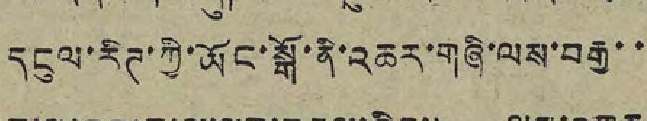དངུལ་རིཊ་ཀྱི་ཡོང་སྒོ་ནི་འཆར་གཞི་ལས་བརྒྱ་་
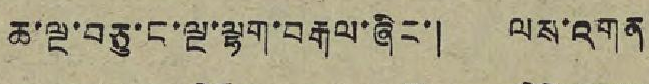ཆ་ལྔ་བཅུ་ང་ལྔ་ལྷག་བརྒལ་ཞིང་། ལས་འགན
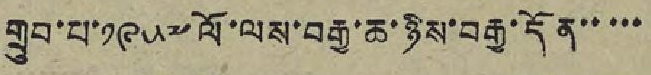གྲུབ་པ་ ༡༩༥༧ ལོ་ལས་བརྒྱ་ཆ་ཉིས་བརྒྱ་དོན་་་་་
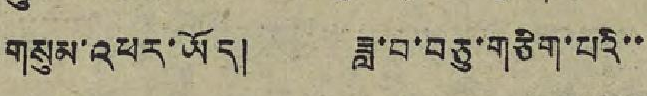གསུམ་འཕར་ཡོད། ཟླ་བ་བཅུ་གཅིག་པའི་་
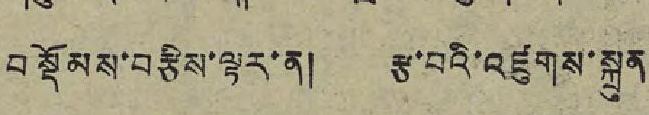བསྡོམས་བརྩིས་ལྟར་ན། རྩ་བའི་འཛུགས་སྐྲུན
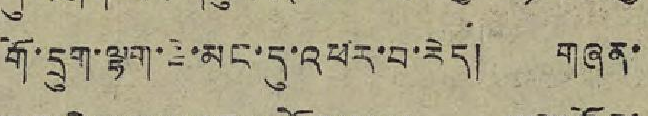གོ་དྲུག་ལྷག་ཇེ་མང་དུ་འཕར་བ་རེད། གཞན་
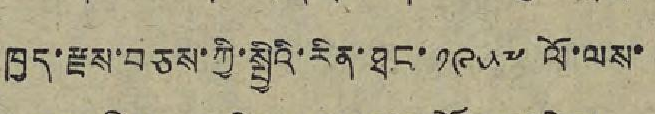ཁྱད་རྫས་བཅས་ཀྱི་སྤྱིའི་རིན་ཐང་ ༡༩༥༧ ལོ་ལས་
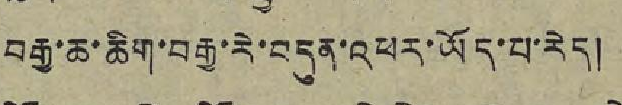བརྒྱ་ཆ་ཆིག་བརྒྱ་རེ་བདུན་འཕར་ཡོད་པ་རེད།
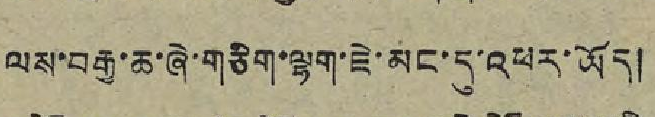ལས་བརྒྱ་ཆ་ཞེ་གཅིག་ལྷག་ཇེ་མང་དུ་འཕར་ཡོད།
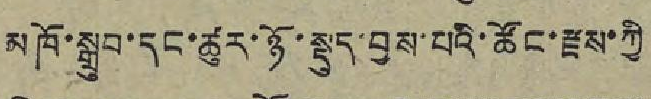མཁོ་སྒྲུབ་དང་ཚུར་ཉོ་སྡུད་བྱས་པའི་ཚོང་རྫས་ཀྱི
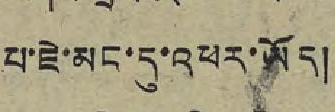པ་ཇེ་མང་དུ་འཕར་ཡོད།
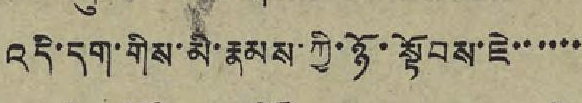འདི་དག་གིས་མི་རྣམས་ཀྱི་ཉོ་སྟོབས་ཇེ་་་་་་
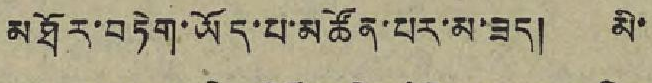མཐོར་བཏེག་ཡོད་པ་མཚོན་པར་མ་ཟད། མི་
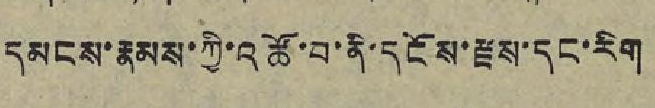དམངས་རྣམས་ཀྱི་འཚོ་བ་ནི་དངོས་རྫས་དང་རིག
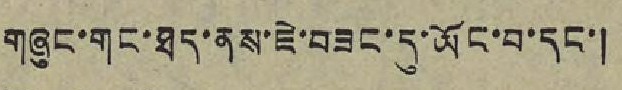གཞུང་གང་ཐད་ནས་ཇེ་བཟང་དུ་ཡོང་བ་དང་།
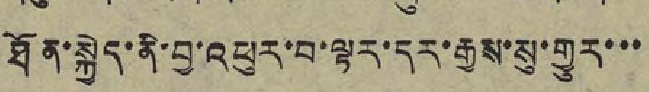ཐོན་སྐྱེད་ནི་བྱ་འཕུར་བ་ལྟར་དར་རྒྱས་སུ་གྱུར་་་
